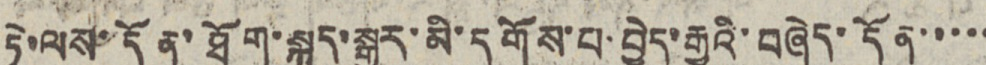ཏེ་ལས་དོན་ཐོག་སྐད་སྒྱུར་མི་དགོས་པ་བྱེད་རྒྱུའི་བཞེད་དོན་་་་་
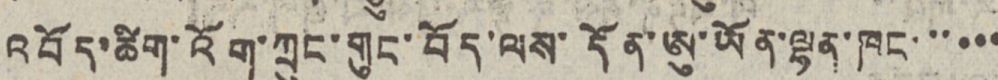འབོད་ཚིག་འོག་ཀྲུང་གུང་བོད་ལས་དོན་ཨུ་ཡོན་ལྷན་ཁང་་་་་་
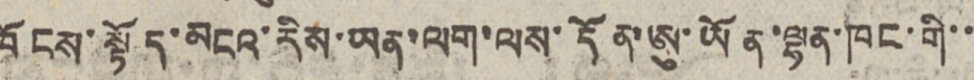ཁོངས་སྟོད་མངའ་རིས་ཡན་ལག་ལས་དོན་ཨུ་ཡོན་ལྷན་ཁང་གི་་
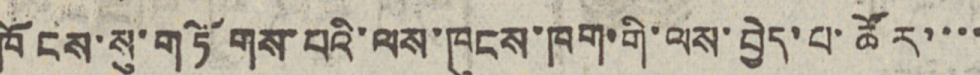ཁོངས་སུ་གཏོགས་པའི་ལས་ཁུངས་ཁག་གི་ལས་བྱེད་པ་ཚོར་་་་
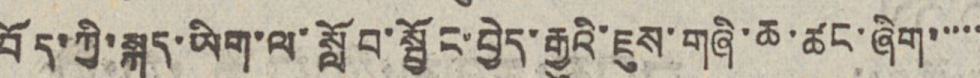བོད་ཀྱི་སྐད་ཡིག་ལ་སློབ་སྦྱོང་བྱེད་རྒྱུའི་ཇུས་གཞི་ཆ་ཚང་ཞིག་་་་་
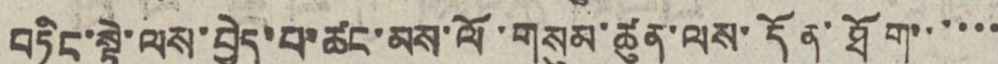བཏིང་སྟེ་ལས་བྱེད་པ་ཚང་མས་ལོ་གསུམ་ཚུན་ལས་དོན་ཐོག་་་་་་
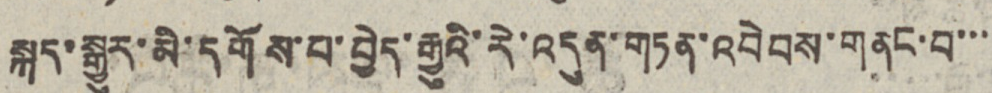སྐད་སྒྱུར་མི་དགོས་པ་བྱེད་རྒྱུའི་རེ་འདུན་གཏན་འབེབས་གནང་བ་་་་
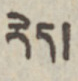རེད།
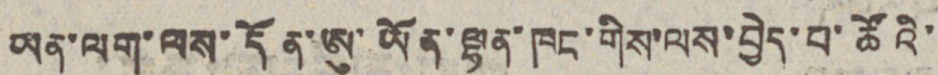ཡན་ལག་ལས་དོན་ཨུ་ཡོན་ལྷན་ཁང་གིས་ལས་བྱེད་པ་ཚོའི་
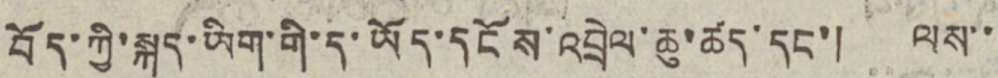བོད་ཀྱི་སྐད་ཡིག་གི་ད་ཡོད་དངོས་འབྲེལ་ཆུ་ཚད་དང་། ལས་་
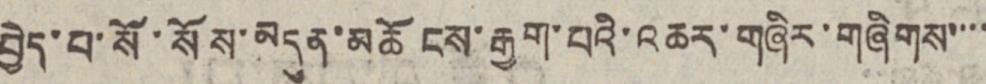བྱེད་པ་སོ་སོས་མདུན་མཆོངས་རྒྱག་པའི་འཆར་གཞིར་གཞིགས་་་་
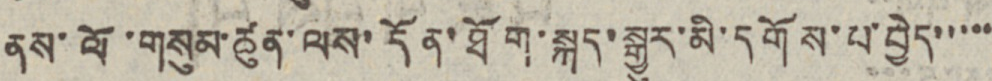ནས་ལོ་གསུམ་ཚུན་ལས་དོན་ཐོག་སྐད་སྒྱུར་མི་དགོས་པ་བྱེད་་་་་
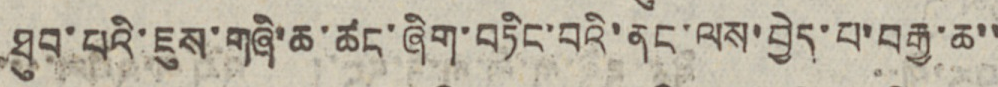ཐུབ་པའི་ཇུས་གཞི་ཆ་ཚང་ཞིག་བཏིང་བའི་ནང་ལས་བྱེད་པ་བརྒྱ་ཆ་་
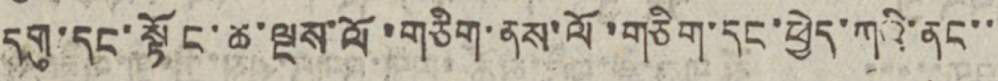དགུ་དང་སྟོང་ཆ་ལྔས་ལོ་གཅིག་ནས་ལོ་གཅིག་དང་ཕྱེད་ཀའི་ནང་་
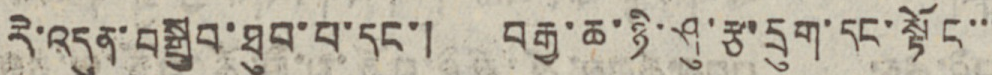རེ་འདུན་བསྒྲུབ་ཐུབ་པ་དང་། བརྒྱ་ཆ་ཉི་ཤུ་རྩ་དྲུག་དང་སྟོང་་་
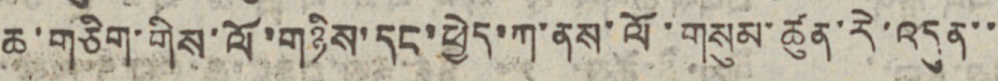ཆ་གཅིག་གིས་ལོ་གཉིས་དང་ཕྱེད་ཀ་ནས་ལོ་གསུམ་ཚུན་རེ་འདུན་་
